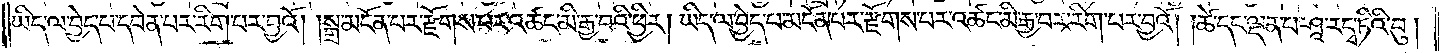ཡིད་ལ་བྱེད་པ་དབེན་པར་རིག་པར་བྱའོ། །སྒྲ་མངོན་པར་རྫོགས་པར་འཚང་མི་རྒྱ་བའི་ཕྱིར། ཡིད་ལ་བྱེད་པ་མངོན་པར་རྫོགས་པར་འཚང་མི་རྒྱ་བར་རིག་པར་བྱའོ། །ཚེ་དང་ལྡན་པ་ཤཱ་ར་དྭ་ཏིའི་བུ།
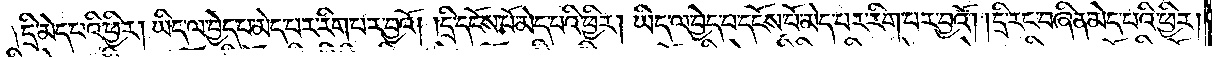དྲི་མེད་པའི་ཕྱིར། ཡིད་ལ་བྱེད་པ་མེད་པར་རིག་པར་བྱའོ། །དྲི་དངོས་པོ་མེད་པའི་ཕྱིར། ཡིད་ལ་བྱེད་པ་དངོས་པོ་མེད་པར་རིག་པར་བྱའོ། །དྲི་རང་བཞིན་མེད་པའི་ཕྱིར།
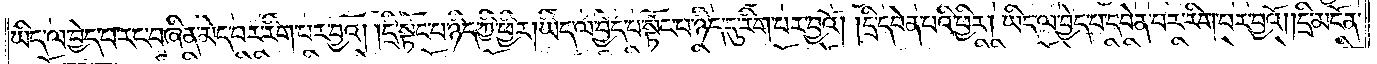ཡིད་ལ་བྱེད་པ་རང་བཞིན་མེད་པར་རིག་པར་བྱའོ། །དྲི་སྟོང་པ་ཉིད་ཀྱི་ཕྱིར། ཡིད་ལ་བྱེད་པ་སྟོང་པ་ཉིད་དུ་རིག་པར་བྱའོ། །དྲི་དབེན་པའི་ཕྱིར། ཡིད་ལ་བྱེད་པ་དབེན་པར་རིག་པར་བྱའོ། །དྲི་མངོན་
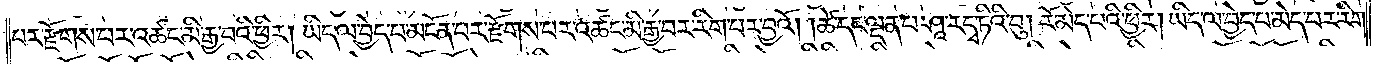པར་རྫོགས་པར་འཚང་མི་རྒྱ་བའི་ཕྱིར། ཡིད་ལ་བྱེད་པ་མངོན་པར་རྫོགས་པར་འཚང་མི་རྒྱ་བར་རིག་པར་བྱའོ། །ཚེ་དང་ལྡན་པ་ཤཱ་ར་དྭ་ཏིའི་བུ། རོ་མེད་པའི་ཕྱིར། ཡིད་ལ་བྱེད་པ་མེད་པར་རིག་
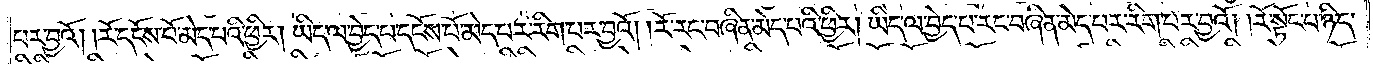པར་བྱའོ། །རོ་དངོས་པོ་མེད་པའི་ཕྱིར། ཡིད་ལ་བྱེད་པ་དངོས་པོ་མེད་པར་རིག་པར་བྱའོ། །རོ་རང་བཞིན་མེད་པའི་ཕྱིར། ཡིད་ལ་བྱེད་པ་རང་བཞིན་མེད་པར་རིག་པར་བྱའོ། །རོ་སྟོང་པ་ཉིད་
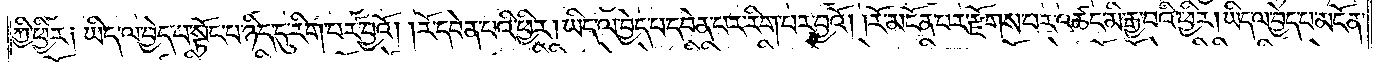ཀྱི་ཕྱིར༏ ཡིད་ལ་བྱེད་པ་སྟོང་པ་ཉིད་དུ་རིག་པར་བྱའོ། །རོ་དབེན་པའི་ཕྱིར། ཡིད་ལ་བྱེད་པ་དབེན་པར་རིག་པར་བྱའོ། །རོ་མངོན་པར་རྫོགས་པར་འཚང་མི་རྒྱ་བའི་ཕྱིར། ཡིད་ལ་བྱེད་པ་མངོན་
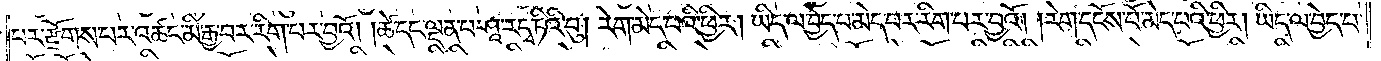པར་རྫོགས་པར་འཚང་མི་རྒྱ་བར་རིག་པར་བྱའོ། །ཚེ་དང་ལྡན་པ་ཤཱ་ར་དྭ་ཏིའི་བུ། རེག་མེད་པའི་ཕྱིར། ཡིད་ལ་བྱེད་པ་མེད་པར་རིག་པར་བྱའོ། །རེག་དངོས་པོ་མེད་པའི་ཕྱིར། ཡིད་ལ་བྱེད་པ་
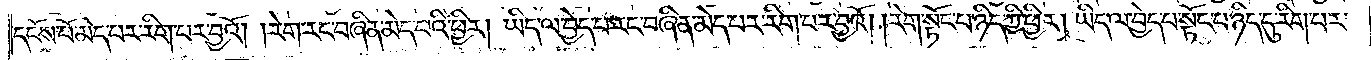དངོས་པོ་མེད་པར་རིག་པར་བྱའོ། །རེག་རང་བཞིན་མེད་པའི་ཕྱིར། ཡིད་ལ་བྱེད་པ་རང་བཞིན་མེད་པར་རིག་པར་བྱའོ། །རེག་སྟོང་པ་ཉིད་ཀྱི་ཕྱིར། ཡིད་ལ་བྱེད་པ་སྟོང་པ་ཉིད་དུ་རིག་པར་
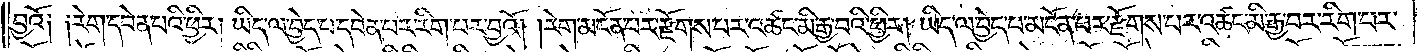བྱའོ༏ ༏རེག་དབེན་པའི་ཕྱིར། ཡིད་ལ་བྱེད་པ་དབེན་པར་རིག་པར་བྱའོ། །རེག་མངོན་པར་རྫོགས་པར་འཚང་མི་རྒྱ་བའི་ཕྱིར། ཡིད་ལ་བྱེད་པ་མངོན་པར་རྫོགས་པར་འཚང་མི་རྒྱ་བར་རིག་པར་
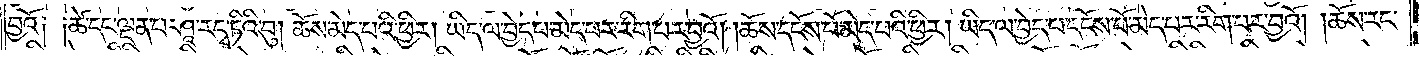བྱའོ༏ ༏ཚེ་དང་ལྡན་པ་ཤཱ་ར་དྭ་ཏིའི་བུ། ཆོས་མེད་པའི་ཕྱིར། ཡིད་ལ་བྱེད་པ་མེད་པར་རིག་པར་བྱའོ། །ཆོས་དངོས་པོ་མེད་པའི་ཕྱིར། ཡིད་ལ་བྱེད་པ་དངོས་པོ་མེད་པར་རིག་པར་བྱའོ། །ཆོས་རང་
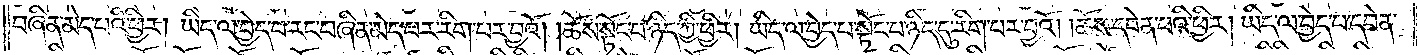བཞིན་མེད་པའི་ཕྱིར། ཡིད་ལ་བྱེད་པ་རང་བཞིན་མེད་པར་རིག་པར་བྱའོ། །ཆོས་སྟོང་པ་ཉིད་ཀྱི་ཕྱིར། ཡིད་ལ་བྱེད་པ་སྟོང་པ་ཉིད་དུ་རིག་པར་བྱའོ། །ཆོས་དབེན་པའི་ཕྱིར། ཡིད་ལ་བྱེད་པ་དབེན་
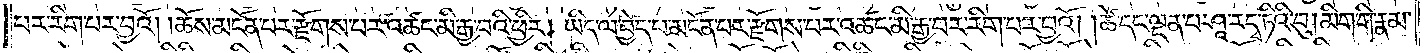པར་རིག་པར་བྱའོ། །ཆོས་མངོན་པར་རྫོགས་པར་འཚང་མི་རྒྱ་བའི་ཕྱིར། ཡིད་ལ་བྱེད་པ་མངོན་པར་རྫོགས་པར་འཚང་མི་རྒྱ་བར་རིག་པར་བྱའོ། །ཚེ་དང་ལྡན་པ་ཤཱ་ར་དྭ་ཏིའི་བུ། མིག་གི་རྣམ་
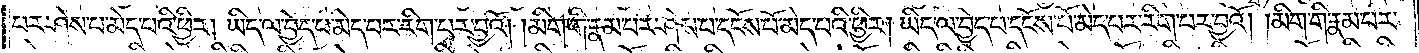པར་ཤེས་པ་མེད་པའི་ཕྱིར། ཡིད་ལ་བྱེད་པ་མེད་པར་རིག་པར་བྱའོ། །མིག་གི་རྣམ་པར་ཤེས་པ་དངོས་པོ་མེད་པའི་ཕྱིར། ཡིད་ལ་བྱེད་པ་དངོས་པོ་མེད་པར་རིག་པར་བྱའོ། །མིག་གི་རྣམ་པར་
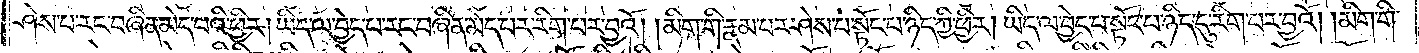ཤེས་པ་རང་བཞིན་མེད་པའི་ཕྱིར། ཡིད་ལ་བྱེད་པ་རང་བཞིན་མེད་པར་རིག་པར་བྱའོ། །མིག་གི་རྣམ་པར་ཤེས་པ་སྟོང་པ་ཉིད་ཀྱི་ཕྱིར། ཡིད་ལ་བྱེད་པ་སྟོང་པ་ཉིད་དུ་རིག་པར་བྱའོ། །མིག་གི་
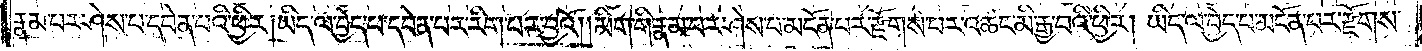རྣམ་པར་ཤེས་པ་དབེན་པའི་ཕྱིར། ཡིད་ལ་བྱེད་པ་དབེན་པར་རིག་པར་བྱའོ། །མིག་གི་རྣམ་པར་ཤེས་པ་མངོན་པར་རྫོགས་པར་འཚང་མི་རྒྱ་བའི་ཕྱིར། ཡིད་ལ་བྱེད་པ་མངོན་པར་རྫོགས་
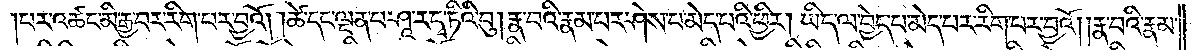པར་འཚང་མི་རྒྱ་བར་རིག་པར་བྱའོ། །ཚེ་དང་ལྡན་པ་ཤཱ་ར་དྭ་ཏིའི་བུ། རྣ་བའི་རྣམ་པར་ཤེས་པ་མེད་པའི་ཕྱིར། ཡིད་ལ་བྱེད་པ་མེད་པར་རིག་པར་བྱའོ། །རྣ་བའི་རྣམ་
